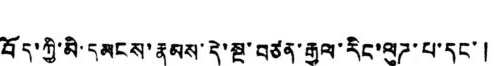བོད་ཀྱི་མི་དམངས་རྣམས་དེ་སྔ་བཙན་རྒྱལ་རིང་ལུཌ་པ་དང་།
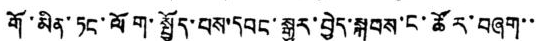གོ་མིན་ཏང་ལོག་སྤྱོད་པས་དབང་སྒྱུར་བྱེད་སྐབས་ང་ཚོར་བཞག་་
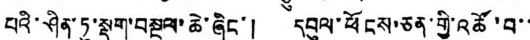པའི་ཤིན་ཏུསྡུག་བསྔལ་ཆེ་ཞིང་། དབུལ་ཕོངས་ཅན་གྱི་འཚོ་བ་་
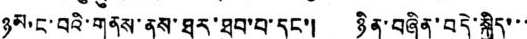ཉམ་ང་བའི་གནས་ནས་ཐར་ཐུབ་བ་དང་། ཉིན་བཞིན་བདེ་སྐྱིད་་་
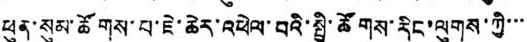ཕུན་སུམ་ཚོགས་པ་ཇེ་ཆེར་འཕེལ་བའི་སྤྱི་ཚོགས་རིང་ལུགས་ཀྱི་་་་
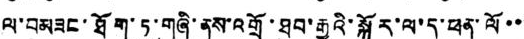ལ་བམཟང་ཐོག་ཏུ་གཞི་ནས་འགྲོ་ཐུབ་རྒྱུའི་སྐོར་ལ་ད་ཕན་ལོ་་་
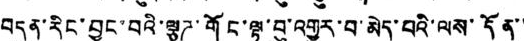བདུན་རིང་བྱུང་བའི་ལྕཌ་གོང་ལྟ་བུ་འགྱུར་བ་མེད་པའི་ལས་དོན་་
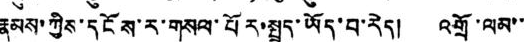རྣམས་ཀྱིས་དངོས་ར་གསལ་པོར་སྤྲད་ཡོད་པ་རེད། འགྲོ་ལམ་་
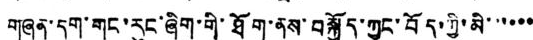གཞན་དག་གང་རུང་ཞིག་གི་ཐོག་ནས་བསྐྱོད་ཀྱང་བོད་ཀྱི་མི་་་་་་
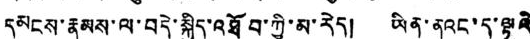དམངས་རྣམས་ལ་བདེ་སྐྱིད་འཐོབ་ཀྱི་མ་རེད། ཡིན་ནའང་ད་ལྟའི
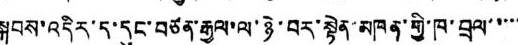སྐབས་འདིར་ད་དུང་བཙན་རྒྱལ་ལ་ཉེ་བར་སྟེན་མཁན་གྱི་ཁ་བྲལ་་་་་
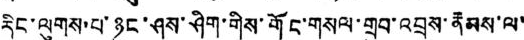རིང་ལུགས་པ་ཉུང་ཤས་ཤིག་གིས་གོང་གསལ་གྲུབ་འབྲས་རྣམས་ལ་
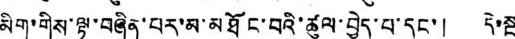མིག་གིས་ལྟ་བཞིན་པར་མ་མཐོང་བའི་ཚུལ་བྱེད་པ་དང་། དེ་སྔ་
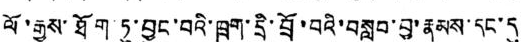ལོ་རྒྱུས་ཐོག་ཏུ་བྱུང་བའི་ཁྲག་དྲི་བྲོ་བའི་བསླབ་བྱ་རྣམས་དང་དུ་
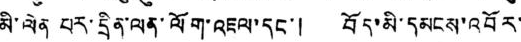མི་ལེན པར་དྲིན་ལན་ལོག་འཇལ་དང་། བོད་མི་དམངས་འབོར་
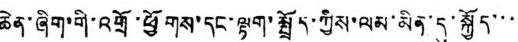ཆེན་ཞིག་གི་འགྲོ་ཕྱོགས་དང་ལྟག་སྤྲོད་ཀྱིས་ལམ་མིན་དུ་སྐྱོད་་་་
